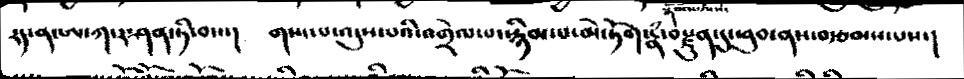རད་ན་ཨ་ཀ་ར་ཤན་ཏི་བས་།    གསང་བ་འདུས་པའི་འགྲེལ་པ་སྙིམ་པ་མེ་ཏོག་རྣཾ་བརྫུན་དུ་ཕུབ་ནས་བརྩམས་པས་།
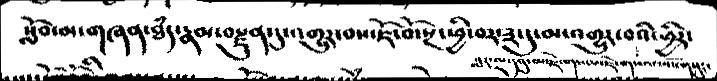སློབ་མ་གཞན་ཐཾད་རྣམ་བརྫུན་དུ་འགྱུར་བས་ཇོ་བོ་སྔ་ཕྱི་བར་༣་དུ་མ་འགྱུར་བའི་ཕྱིར་
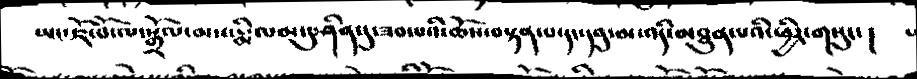ཡང་ཇོ་བོ་ལ་སྒྲོལ་མས་རྨི་ལམ་དུ་ཤིན་དུ་ཟབ་པའི་ཆོས་བསྟན་པ་དང་དབུ་མ་འདི་མཐུན་པའི་ཕྱིར་གསུང་།
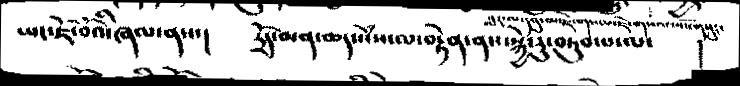ཡང་ཇོ་བའི་ཞལ་ནས་།  དྲོད་མན་ཆད་སེཾས་ལ་བརྟེན་ནས་སྐྱེ་རུ་བཏུབ་པ་ལ་     །
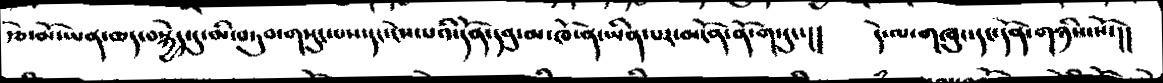རྩེ་མོ་ཡན་ཆད་བསྐྱེད་དུ་མ་བཏུབ་གསུང་པས་དང་ངེས་པའི་དོན་དབུ་མ་ཁོ་ན་ཡིན་པར་མངོན་ནོ་གསུང་།།  དེ་ལ་གཞུང་དང་དོན་གཉིས་སོ་།།
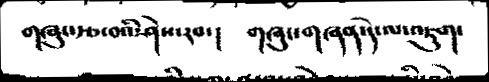གཞུང་རྩ་བའི་ཤེས་རབ་།   གཞུང་གཞན་དེ་ལ་འཇུག་
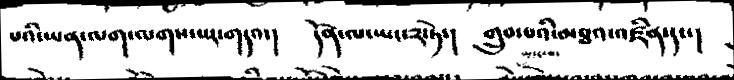པའི་ཡན་ལག་ལགས་པར་གདའ་།   དོན་ལ་ཡང་༢་ཏེ་།  གྲུབ་པའི་མཐའ་འཛིན་དང་།
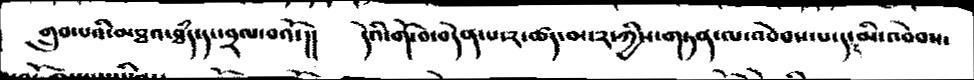གྲུབ་པའི་མཐའ་ཐཾད་དང་བྲལ་བའོ་།།   དེའི་གོ་བ་བདེན་པ་༢་ཚད་མ་༢་ཀྱིས་གཏན་ལ་འབེབས་པ་དང་མི་འབེབས་
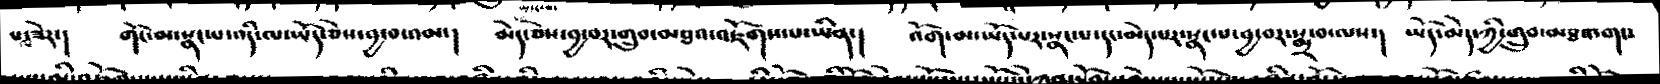པ་ལ་ཟེར་།   གོང་མ་སྣང་པ་འདི་ལ་ཡོད་ཅེས་བྱ་བའམ་།   མེད་ཅེས་བྱ་བར་གྲུབ་མཐའ་འཇོག་པ་ཡིན་།   འོག་མ་ཡོད་པར་སྣང་པ་དང་མེད་པར་སྣང་པ་བྱ་བར་སྨྲ་བ་ལས་།   ཡོད་མེད་ཀྱི་གྲུབ་མཐའ་གང་
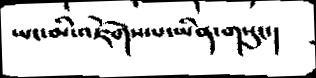ཡང་མི་འཇོགས་པ་ཡིན་གསུང་།
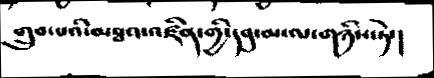གྲུབ་པའི་མཐའ་འཛིན་གྱི་དབུ་མ་ལ་གཉིས་ཏེ་།
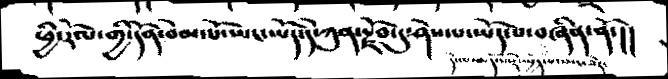ཕྱི་རོལ་གྱི་དོན་བེམ་པོ་ཡང་ཡོད་དེ་ཀུན་རྫོབ་དུ་ཤེས་པ་ཡོད་བཞིན་ནོ་།།
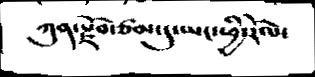ཀུན་རྫོབ་ཙམ་དུ་ཡང་ཕྱི་རོལ་
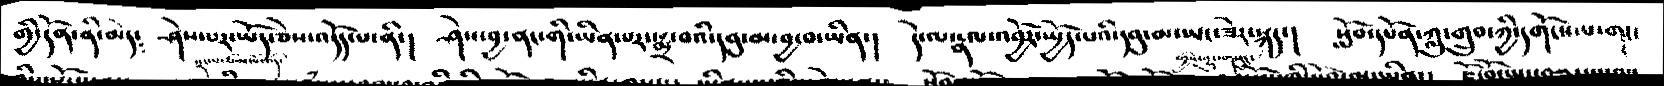གྱི་དོན་ནི་མེད༴   ཤེས་པར་ཡོད་ཅེས་འདོད་པ་ནི་།   ཤེས་བྱ་ནང་གི་ཡིན་པར་སྨྲ་བའི་དབུ་མ་བྱ་བ་ཡིན་།    དེ་ལ་རྣལ་འབྱོར་སྤྱོད་པའི་དབུ་མ་ཡང་ཟེར་སྐད་།    སློབ་དཔོན་ཀླུ་གྲུབ་ཀྱི་དགོངས་པ་གང་
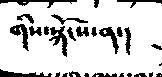གིས་སྐོངས་ན་།
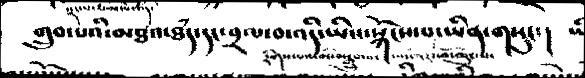གྲུབ་པའི་མཐའ་ཐཾད་དང་བྲལ་བ་འདི་ཡིས་སྐོངས་པ་ཡིན་གསུང་།
